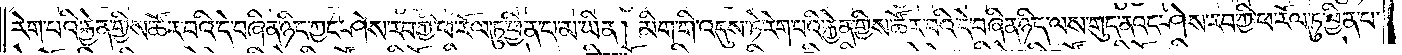རེག་པའི་རྐྱེན་གྱིས་ཚོར་བའི་དེ་བཞིན་ཉིད་ཀྱང་ཤེས་རབ་ཀྱི་ཕ་རོལ་ཏུ་ཕྱིན་པ་མ་ཡིན། མིག་གི་འདུས་ཏེ་རེག་པའི་རྐྱེན་གྱིས་ཚོར་བའི་དེ་བཞིན་ཉིད་ལས་གུད་ནའང་ཤེས་རབ་ཀྱི་ཕ་རོལ་ཏུ་ཕྱིན་པ་
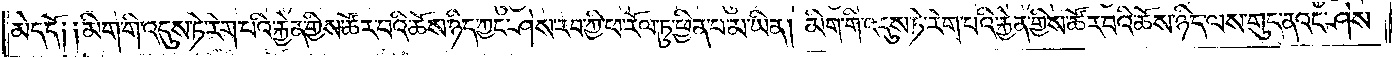མེད་དོ། །མིག་གི་འདུས་ཏེ་རེག་པའི་རྐྱེན་གྱིས་ཚོར་བའི་ཆོས་ཉིད་ཀྱང་ཤེས་རབ་ཀྱི་ཕ་རོལ་ཏུ་ཕྱིན་པ་མ་ཡིན། མིག་གི་འདུས་ཏེ་རེག་པའི་རྐྱེན་གྱིས་ཚོར་བའི་ཆོས་ཉིད་ལས་གུད་ནའང་ཤེས་
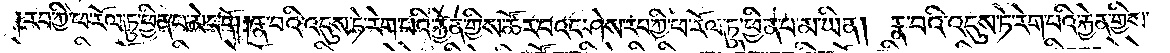རབ་ཀྱི་ཕ་རོལ་ཏུ་ཕྱིན་པ་མེད་དོ། །རྣ་བའི་འདུས་ཏེ་རེག་པའི་རྐྱེན་གྱིས་ཚོར་བའང་ཤེས་རབ་ཀྱི་ཕ་རོལ་ཏུ་ཕྱིན་པ་མ་ཡིན། རྣ་བའི་འདུས་ཏེ་རེག་པའི་རྐྱེན་གྱིས་
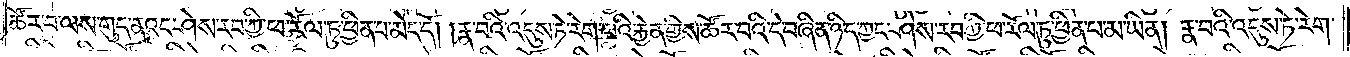ཚོར་བ་ལས་གུད་ནའང་ཤེས་རབ་ཀྱི་ཕ་རོལ་ཏུ་ཕྱིན་པ་མེད་དོ། །རྣ་བའི་འདུས་ཏེ་རེག་པའི་རྐྱེན་གྱིས་ཚོར་བའི་དེ་བཞིན་ཉིད་ཀྱང་ཤེས་རབ་ཀྱི་ཕ་རོལ་ཏུ་ཕྱིན་པ་མ་ཡིན།རྣ་བའི་འདུས་ཏེ་རེག་
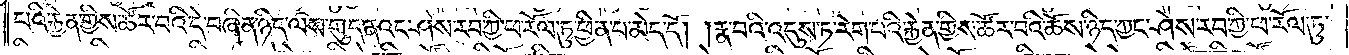པའི་རྐྱེན་གྱིས་ཚོར་བའི་དེ་བཞིན་ཉིད་ལས་གུད་ནའང་ཤེས་རབ་ཀྱི་ཕ་རོལ་ཏུ་ཕྱིན་པ་མེད་དོ། །རྣ་བའི་འདུས་ཏེ་རེག་པའི་རྐྱེན་གྱིས་ཚོར་བའི་ཆོས་ཉིད་ཀྱང་ཤེས་རབ་ཀྱི་ཕ་རོལ་ཏུ་
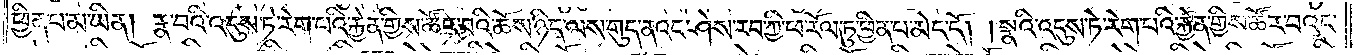ཕྱིན་པ་མ་ཡིན། རྣ་བའི་འདུས་ཏེ་རེག་པའི་རྐྱེན་གྱིས་ཚོར་བའི་ཆོས་ཉིད་ལས་གུད་ནའང་ཤེས་རབ་ཀྱི་ཕ་རོལ་ཏུ་ཕྱིན་པ་མེད་དོ། །སྣའི་འདུས་ཏེ་རེག་པའི་རྐྱེན་གྱིས་ཚོར་བའང་
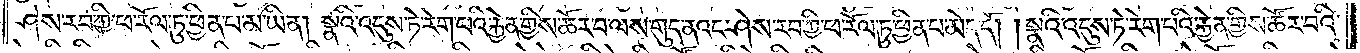ཤེས་རབ་ཀྱི་ཕ་རོལ་ཏུ་ཕྱིན་པ་མ་ཡིན། སྣའི་འདུས་ཏེ་རེག་པའི་རྐྱེན་གྱིས་ཚོར་བ་ལས་གུད་ནའང་ཤེས་རབ་ཀྱི་ཕ་རོལ་ཏུ་ཕྱིན་པ་མེད་དོ། །སྣའི་འདུས་ཏེ་རེག་པའི་རྐྱེན་གྱིས་ཚོར་བའི་
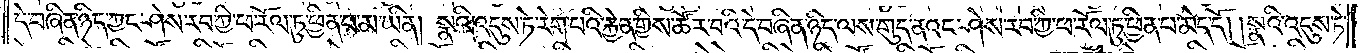དེ་བཞིན་ཉིད་ཀྱང་ཤེས་རབ་ཀྱི་ཕ་རོལ་ཏུ་ཕྱིན་པ་མ་ཡིན། སྣའི་འདུས་ཏེ་རེག་པའི་རྐྱེན་གྱིས་ཚོར་བའི་དེ་བཞིན་ཉིད་ལས་གུད་ནའང་ཤེས་རབ་ཀྱི་ཕ་རོལ་ཏུ་ཕྱིན་པ་མེད་དོ། །སྣའི་འདུས་ཏེ་
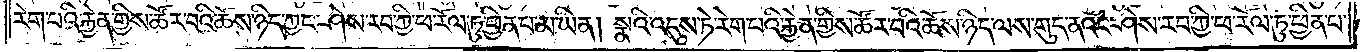རེག་པའི་རྐྱེན་གྱིས་ཚོར་བའི་ཆོས་ཉིད་ཀྱང་ཤེས་རབ་ཀྱི་ཕ་རོལ་ཏུ་ཕྱིན་པ་མ་ཡིན། སྣའི་འདུས་ཏེ་རེག་པའི་རྐྱེན་གྱིས་ཚོར་བའི་ཆོས་ཉིད་ལས་གུད་ནའང་ཤེས་རབ་ཀྱི་ཕ་རོལ་ཏུ་ཕྱིན་པ་
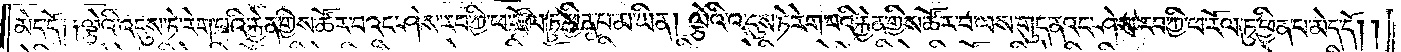མེད་དོ། །ལྕེའི་འདུས་ཏེ་རེག་པའི་རྐྱེན་གྱིས་ཚོར་བའང་ཤེས་རབ་ཀྱི་ཕ་རོལ་ཏུ་ཕྱིན་པ་མ་ཡིན། ལྕེའི་འདུས་ཏེ་རེག་པའི་རྐྱེན་གྱིས་ཚོར་བ་ལས་གུད་ནའང་ཤེས་རབ་ཀྱི་ཕ་རོལ་ཏུ་ཕྱིན་པ་མེད་དོ། །
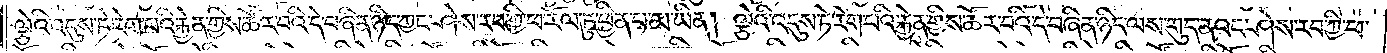ལྕེའི་འདུས་ཏེ་རེག་པའི་རྐྱེན་གྱིས་ཚོར་བའི་དེ་བཞིན་ཉིད་ཀྱང་ཤེས་རབ་ཀྱི་ཕ་རོལ་ཏུ་ཕྱིན་པ་མ་ཡིན། ལྕེའི་འདུས་ཏེ་རེག་པའི་རྐྱེན་གྱིས་ཚོར་བའི་དེ་བཞིན་ཉིད་ལས་གུད་ནའང་ཤེས་རབ་ཀྱི་ཕ་
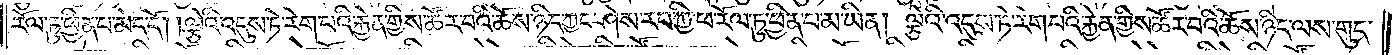རོལ་ཏུ་ཕྱིན་པ་མེད་དོ། །ལྕེའི་འདུས་ཏེ་རེག་པའི་རྐྱེན་གྱིས་ཚོར་བའི་ཆོས་ཉིད་ཀྱང་ཤེས་རབ་ཀྱི་ཕ་རོལ་ཏུ་ཕྱིན་པ་མ་ཡིན། ལྕེའི་འདུས་ཏེ་རེག་པའི་རྐྱེན་གྱིས་ཚོར་བའི་ཆོས་ཉིད་ལས་གུད་
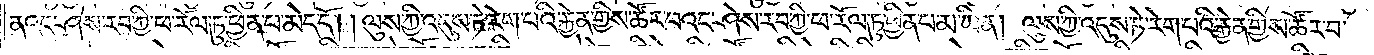ནའང་ཤེས་རབ་ཀྱི་ཕ་རོལ་ཏུ་ཕྱིན་པ་མེད་དོ། །ལུས་ཀྱི་འདུས་ཏེ་རེག་པའི་རྐྱེན་གྱིས་ཚོར་བའང་ཤེས་རབ་ཀྱི་ཕ་རོལ་ཏུ་ཕྱིན་པ་མ་ཡིན། ལུས་ཀྱི་འདུས་ཏེ་རེག་པའི་རྐྱེན་གྱིས་ཚོར་བ་
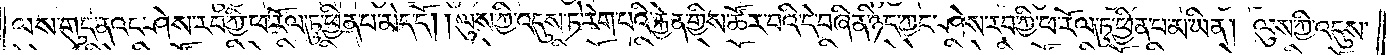ལས་གུད་ནའང་ཤེས་རབ་ཀྱི་ཕ་རོལ་ཏུ་ཕྱིན་པ་མེད་དོ། །ལུས་ཀྱི་འདུས་ཏེ་རེག་པའི་རྐྱེན་གྱིས་ཚོར་བའི་དེ་བཞིན་ཉིད་ཀྱང་ཤེས་རབ་ཀྱི་ཕ་རོལ་ཏུ་ཕྱིན་པ་མ་ཡིན། ལུས་ཀྱི་འདུས་
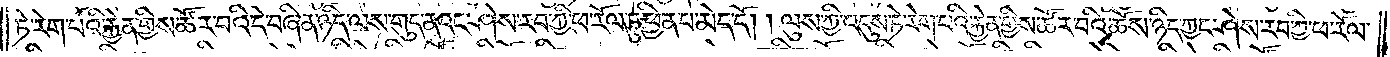ཏེ་རེག་པའི་རྐྱེན་གྱིས་ཚོར་བའི་དེ་བཞིན་ཉིད་ལས་གུད་ནའང་ཤེས་རབ་ཀྱི་ཕ་རོལ་ཏུ་ཕྱིན་པ་མེད་དོ། །ལུས་ཀྱི་འདུས་ཏེ་རེག་པའི་རྐྱེན་གྱིས་ཚོར་བའི་ཆོས་ཉིད་ཀྱང་ཤེས་རབ་ཀྱི་ཕ་རོལ་
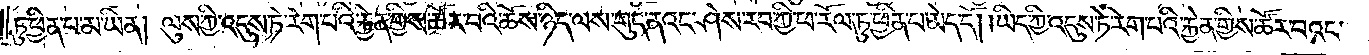ཏུ་ཕྱིན་པ་མ་ཡིན། ལུས་ཀྱི་འདུས་ཏེ་རེག་པའི་རྐྱེན་གྱིས་ཚོར་བའི་ཆོས་ཉིད་ལས་གུད་ནའང་ཤེས་རབ་ཀྱི་ཕ་རོལ་ཏུ་ཕྱིན་པ་མེད་དོ། །ཡིད་ཀྱི་འདུས་ཏེ་རེག་པའི་རྐྱེན་གྱིས་ཚོར་བའང་
